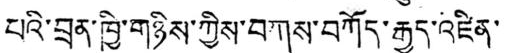པའི་བྲན་ཁྱི་གཉིས་ཀྱིས་བཀས་བཀོད་རྒྱུད་འཛིན་
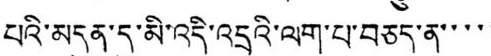པའི་མདུན་དུ་མི་འདི་འདྲའི་ལག་པ་བཅད་ན་་་་་
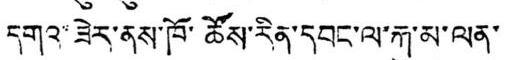དགའ་ཟེར་ནས་ཁོ་ཚོས་རིན་དབང་ལ་རྐུ་མ་ལན་
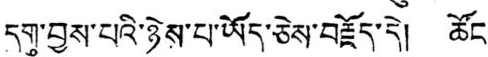དགུ་བྱས་པའི་ཉེས་པ་ཡོད་ཅེས་བརྗོད་དེ། ཚོང་
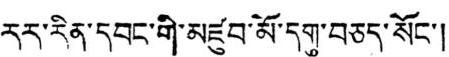རར་རིན་དབང་གི་མཛུབ་མོ་དགུ་བཅད་སོང་།
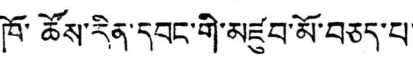ཁོ་ཚོས་རིན་དབང་གི་མཛུབ་མོ་བཅད་པ་
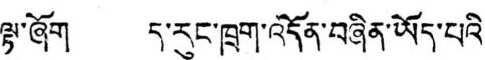ལྷ་ཞོག ད་རུང་ཁྲག་འདོན་བཞིན་ཡོད་པའི་
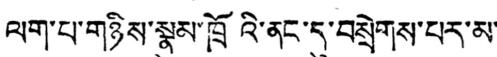ལག་པ་གཉིས་སྣུམ་ཁྲོའི་ནང་དུ་བསྲེགས་པར་མ་
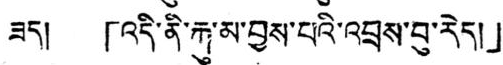ཟད། 「འདི་ནི་རྐུ་མ་བྱས་པའི་འབྲས་བུ་རེད།」
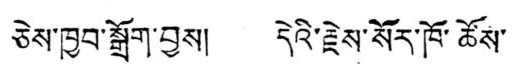ཅེས་ཁྱབ་སྒྲོག་བྱས། དེའི་རྗེས་སོར་ཁོ་ཚོས་
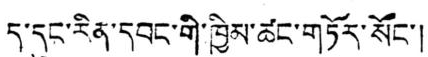ད་དུང་རིན་དབང་གི་ཁྱིམ་ཚང་གཏོར་སོང་།
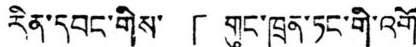རིན་དབང་གིས་ 「གུང་ཁྲན་ཏང་གི་འགོ་
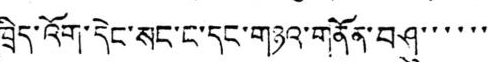ཁྲིད་འོག་དེང་སང་ང་དང་གཉའ་གནོན་བཤུ་་་་་་
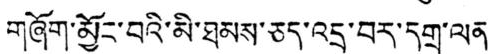གཞོག་མྱོང་བའི་མི་ཐམས་ཅད་འདྲ་བར་དགྲ་ལན་
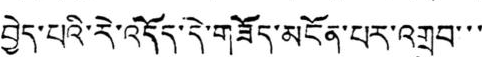བྱེད་པའི་རེ་འདོད་དེ་གཟོད་མངོན་པར་འགྲུབ་་་་
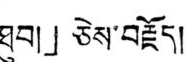ཐུབ།」ཅེས་བརྗོད།
